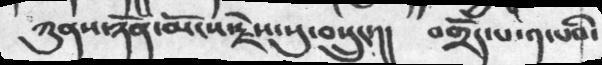ཀུནས་ཉོན་མོངས་རྗེས་སུ་བསྲུང་།།      བགྲོད་པ་༡་པའི་
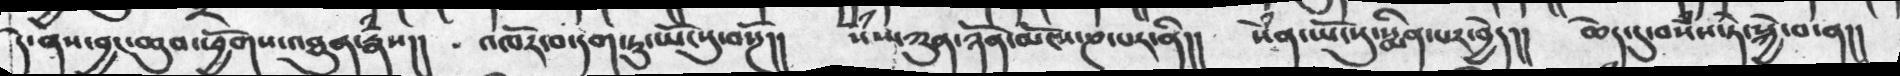དེ་ནས་བྱང་ཆུབ་ཕྱོགས་འཐུན་རྣཾས།།    འཁོར་བ་དག་ཏུ་ཡོངསུ་བསྔོ།།   སེཾས་ཀུན་ཉོན་མོངས་ཎ་པར་ནི།།   སེཾན་ཡོངསུ་སྨིན་པར་བྱེད།།    ཆེད་དུ་བསཾས་ཏེ་སྐྱེ་བ་ན།།
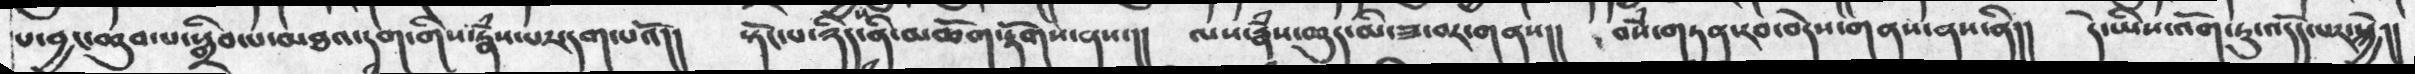པ་བྱང་ཆུབ་པ་སྒྲིབ་པ་མཐའ་དག་གིས་རྣཾས་པར་དག་པའོ།།  སྟོང་པ་ཉིད་ནི་མཆོག་རྟོགས་ནས་།།  ལས་རྣཾས་ཆུད་མི་ཟ་བར་གནས།།  བསཾ་གཏན་རབ་བདེས་གནས་ནས་ནི།།  དེ་ཡིས་འོག་ཏུ་འདོད་པར་སྐྱེ།།
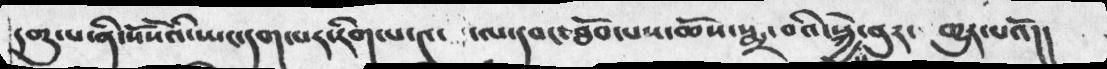དགུ་པ་ནི་སོ་སོའི་ཡང་དག་པར་རིག་པ་༤་ལ་དབང་ཐོབ་པས་ཆོས་སྨྲ་བའི་སྐྱེས་བུར་   གྱུར་པའོ།།
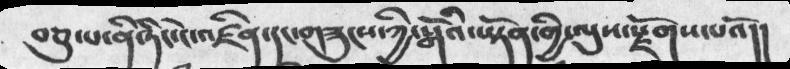བཅུ་པ་ནི་ཏིང་ངེ་འཛིན་དང་གཟུགས་ཀྱི་སྒོའི་ཡྟོན་གྱི་ལུས་སྫོགས་པའོ།།
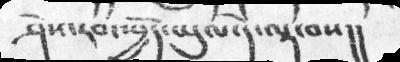ཤེས་རབ་ཡྱོད་ཡུལ་དེ་ལྟ་བས།།
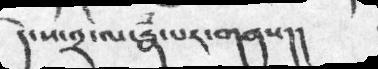དེ་ས་༢་ལ་རྣཾ་པར་གནས།།
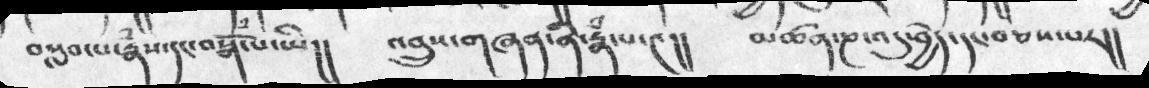བསླབ་པ་རྣཾས་དང་བསྒོཾ་པ་ཡི།།     འབྲུས་གཞན་ནི་རྣཾ་པ་༤།།    མཚན་ཎ་འདུ་བྱེད་དང་བཅས་པར།།
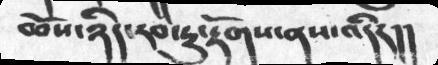ཆོས་ཉིད་རབ་ཏུ་རྟོགས་ནས་འདིར།།
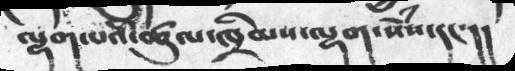ལྷག་པའི་ཚུལ་ཁྲིམས་ལྷག་སེཾས་དང་།།
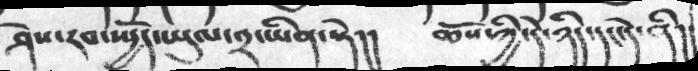ཤེས་རབ་ཡྱོད་ཡུལ་༢་ཡིན་སྟེ།།      ཆོས་ཀྱི་དེ་ཉིད་དང་དེ་ནི།།
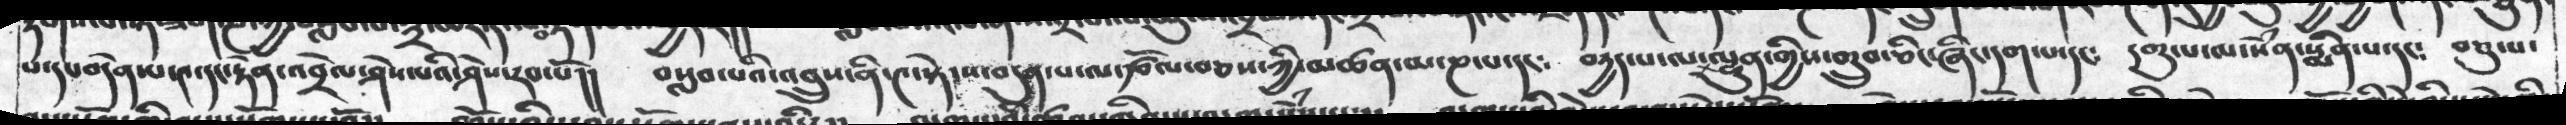པ་དང་བདེན་པ་༤་དང་རྟེན་འབྲེལ་ཤེས་པའི་ཤེས་རབ་པོ།།   བསླབ་པའི་འབྲུས་ནི་༤་སྟེ་ས་བདུན་པ་ལ་རྩོལ་བཅས་ཀྱི་མཚན་མ་ཎ་པ་དང༴ བརྱད་པ་ལ་ལྷུན་གྱིས་གྲུབ་ཅིང་ཞིང་དག་པ་དང་༴  དགུ་པ་ལ་སེཾན་སྨིན་པ་དང༴   བཅུ་པ་
